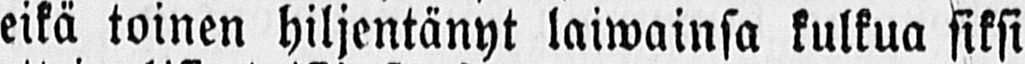eikä toinen hiljentänyt laiwainsa kulkua siksi
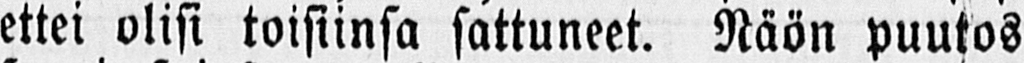ettei olisi toisiinsa sattuneet. Näön puutos
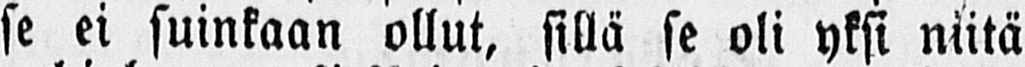se ei suinkaan ollut, sillä se oli yksi niitä
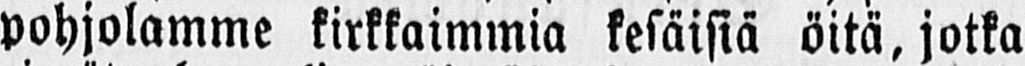pohjolamme kirkkaimmia kesäisiä öitä, jotka
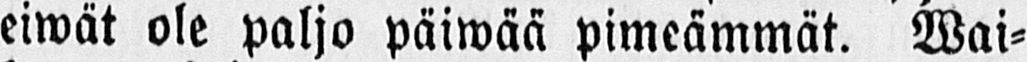eiwät ole paljo päiwää pimeämmät. Wai-
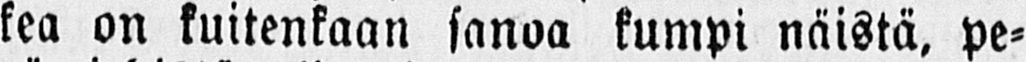kea on kuitenkaan sanoa kumpi näistä, pe-
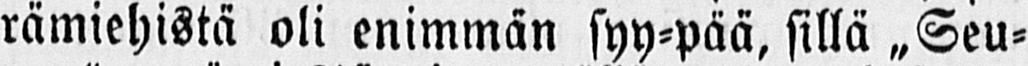rämiehistä oli enimmän syy-pää, sillä „Seu-
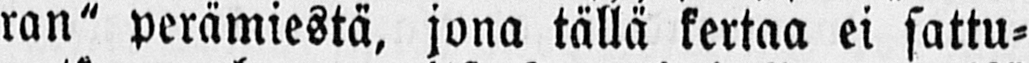ran" perämiestä, jona tällä kertaa ei sattu-
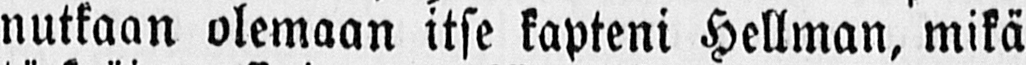nutkaan olemaan itse kapteni Hellman, mikä
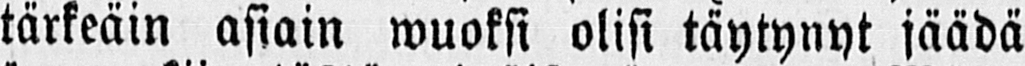tärkeäin asiain wuoksi olisi täytynyt jäädä
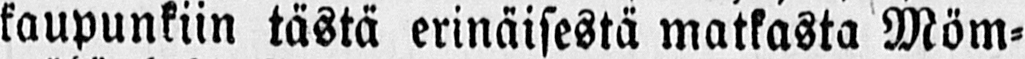kaupunkiin tästä erinäisestä matkasta Möm-
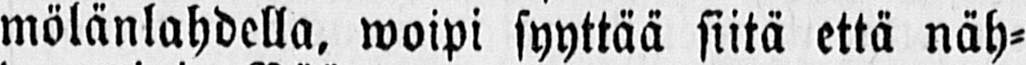mölänlahdella, woipi syyttää siitä että näh-
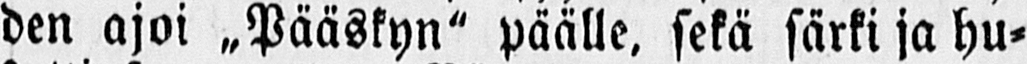den ajoi „Pääskyn" päälle, sekä särki ja hu-
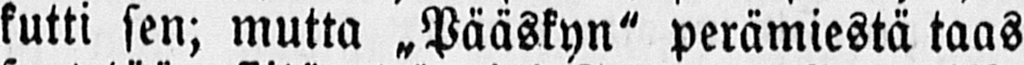kutti sen; mutta „Pääskyn" perämiestä taas
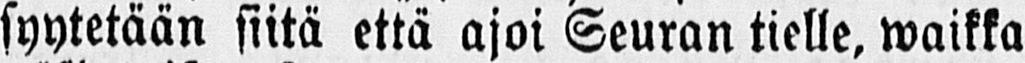syytetään siitä että ajoi Seuran tielle, waikka
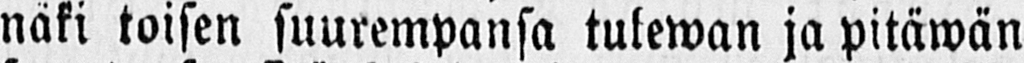näki toisen suurempansa tulewan ja pitäwän
